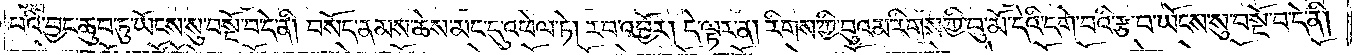པའི་བྱང་ཆུབ་ཏུ་ཡོངས་སུ་བསྔོ་བ་དེ་ནི། བསོད་ནམས་ཆེས་མང་དུ་འཕེལ་ཏེ། རབ་འབྱོར། དེ་ལྟར་ན། རིགས་ཀྱི་བུའམ་རིགས་ཀྱི་བུ་མོ་དེའི་དགེ་བའི་རྩ་བ་ཡོངས་སུ་བསྔོ་བ་དེ་ནི།
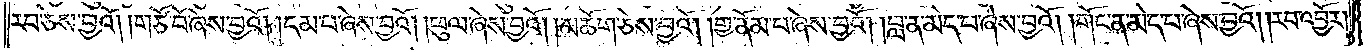རབ་ཅེས་བྱའོ། །གཙོ་བོ་ཞེས་བྱའོ། །དམ་པ་ཞེས་བྱའོ། །ཕུལ་ཞེས་བྱའོ། །མཆོག་ཅེས་བྱའོ། །གྱ་ནོམ་པ་ཞེས་བྱའོ། །བླ་ན་མེད་པ་ཞེས་བྱའོ། །གོང་ན་མེད་པ་ཞེས་བྱའོ། །རབ་འབྱོར།
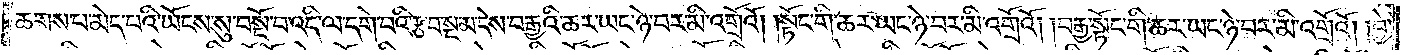ཆགས་པ་མེད་པའི་ཡོངས་སུ་བསྔོ་བ་འདི་ལ་དགེ་བའི་རྩ་བ་སྔ་མ་དེས་བརྒྱའི་ཆར་ཡང་ཉེ་བར་མི་འགྲོའོ། །སྟོང་གི་ཆར་ཡང་ཉེ་བར་མི་འགྲོའོ། །བརྒྱ་སྟོང་གི་ཆར་ཡང་ཉེ་བར་མི་འགྲོའོ། །བྱེ་
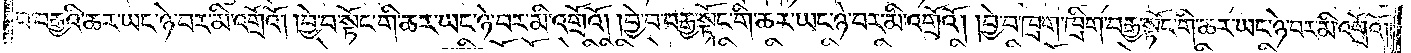བ་བརྒྱའི་ཆར་ཡང་ཉེ་བར་མི་འགྲོའོ། །བྱེ་བ་སྟོང་གི་ཆར་ཡང་ཉེ་བར་མི་འགྲོའོ། །བྱེ་བ་བརྒྱ་སྟོང་གི་ཆར་ཡང་ཉེ་བར་མི་འགྲོའོ། །བྱེ་བ་ཁྲག་ཁྲིག་བརྒྱ་སྟོང་གི་ཆར་ཡང་ཉེ་བར་མི་འགྲོའོ། །
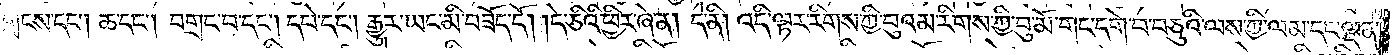གྲངས་དང༌། ཆ་དང༌། བགྲང་བ་དང༌། དཔེ་དང༌། རྒྱུར་ཡང་མི་བཟོད་དོ། །དེ་ཅིའི་ཕྱིར་ཞེ་ན། དེ་ནི། འདི་ལྟར་རིགས་ཀྱི་བུའམ་རིགས་ཀྱི་བུ་མོ་གང་དགེ་བ་བཅུའི་ལས་ཀྱི་ལམ་དང་ལྡན་
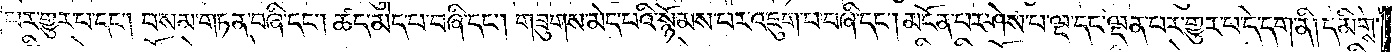པར་གྱུར་པ་དང༌། བསམ་གཏན་བཞི་དང༌། ཚད་མེད་པ་བཞི་དང༌། གཟུགས་མེད་པའི་སྙོམས་པར་འཇུག་པ་བཞི་དང༌། མངོན་པར་ཤེས་པ་ལྔ་དང་ལྡན་པར་གྱུར་པ་དེ་དག་ནི། དམིགས་
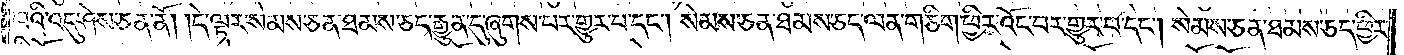པའི་འདུ་ཤས་ཅན་ནོ། །དེ་ལྟར་སེམས་ཅན་ཐམས་ཅད་རྒྱུན་དུ་ཞུགས་པར་གྱུར་པ་དང༌། སེམས་ཅན་ཐམས་ཅད་ལན་གཅིག་ཕྱིར་འོང་བར་གྱུར་པ་དང༌། སེམས་ཅན་ཐམས་ཅད་ཕྱིར་
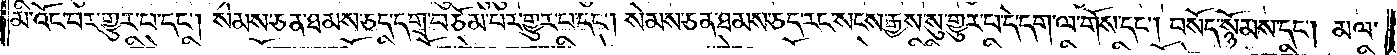མི་འོང་བར་གྱུར་པ་དང༌། སེམས་ཅན་ཐམས་ཅད་དགྲ་བཅོམ་པར་གྱུར་པ་དང༌། སེམས་ཅན་ཐམས་ཅད་རང་སངས་རྒྱས་སུ་གྱུར་པ་དེ་དག་ལ་གོས་དང༌། བསོད་སྙོམས་དང༌། མལ་
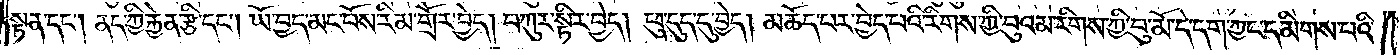སྟན་དང༌། ནད་ཀྱི་རྐྱེན་རྩི་དང༌། ཡོ་བྱད་མང་པོས་རིམ་གྲོར་བྱེད། བཀུར་སྟིར་བྱེད། ཕུ་དུད་དུ་བྱེད། མཆོད་པར་བྱེད་པའི་རིགས་ཀྱི་བུའམ་རིགས་ཀྱི་བུ་མོ་དེ་དག་ཀྱང་དམིགས་པའི་
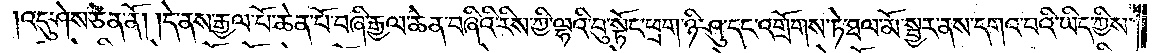འདུ་ཤེས་ཅན་ནོ། །དེ་ནས་རྒྱལ་པོ་ཆེན་པོ་བཞི་རྒྱལ་ཆེན་བཞིའི་རིས་ཀྱི་ལྷའི་བུ་སྟོང་ཕྲག་ཉི་ཤུ་དང་འགྲོགས་ཏེ་ཐལ་མོ་སྦྱར་ནས་དགའ་བའི་ཡིད་ཀྱིས་
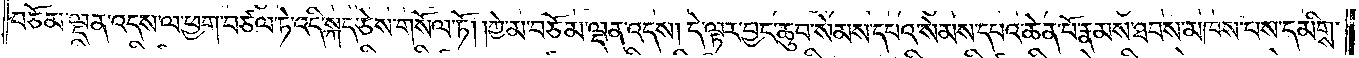བཅོམ་ལྡན་འདས་ལ་ཕྱག་བཙལ་ཏེ་འདི་སྐད་ཅེས་གསོལ་ཏོ། །ཀྱེ་མ་བཅོམ་ལྡན་འདས། དེ་ལྟར་བྱང་ཆུབ་སེམས་དཔའ་སེམས་དཔའ་ཆེན་པོ་རྣམས་ཐབས་མཁས་པས་དམིགས་
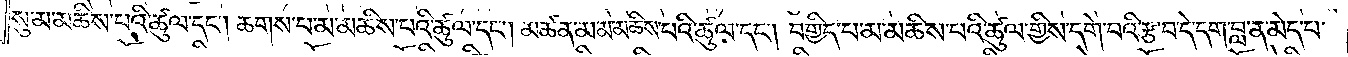སུ་མ་མཆིས་པའི་ཚུལ་དང༌། ཆགས་པ་མ་མཆིས་པའི་ཚུལ་དང༌། མཚན་མ་མ་མཆིས་པའི་ཚུལ་དང༌། བགྱིད་པ་མ་མཆིས་པའི་ཚུལ་གྱིས་དགེ་བའི་རྩ་བ་དེ་དག་བླ་ན་མེད་པ་
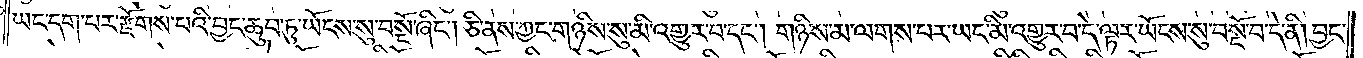ཡང་དག་པར་རྫོགས་པའི་བྱང་ཆུབ་ཏུ་ཡོངས་སུ་བསྔོ་ཞིང༌། ཅི་ནས་ཀྱང་གཉིས་སུ་མི་འགྱུར་བ་དང༌། གཉིས་མ་ལགས་པར་ཡང་མི་འགྱུར་བ་དེ་ལྟར་ཡོངས་སུ་བསྔོ་བ་དེ་ནི། བྱང་
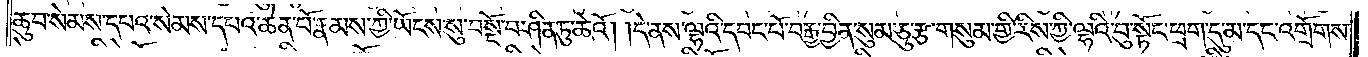ཆུབ་སེམས་དཔའ་སེམས་དཔའ་ཆེན་པོ་རྣམས་ཀྱི་ཡོངས་སུ་བསྔོ་བ་ཤིན་ཏུ་ཆེའོ། །དེ་ནས་ལྷའི་དབང་པོ་བརྒྱ་བྱིན་སུམ་ཅུ་རྩ་གསུམ་གྱི་རིས་ཀྱི་ལྟའི་བུ་སྟོང་ཕྲག་དུ་མ་དང་འགྲོགས་
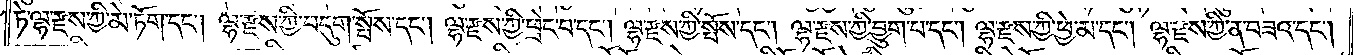ཏེ་ལྷ་རྫས་ཀྱི་མེ་ཏོག་དང༌། ལྷ་རྫས་ཀྱི་བདུག་སྤོས་དང༌། ལྷ་རྫས་ཀྱི་ཕྲེང་བ་དང༌། ལྷ་རྫས་ཀྱི་སྤོས་དང༌། ལྷ་རྫས་ཀྱི་བྱུག་པ་དང༌། ལྷ་རྫས་ཀྱི་ཕྱེ་མ་དང༌། ལྷ་རྫས་ཀྱི་ན་བཟའ་དང༌།
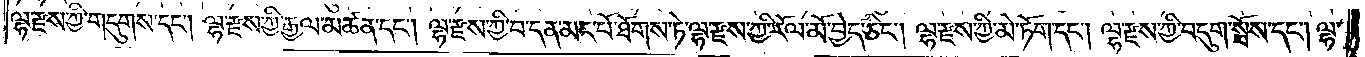ལྷ་རྫས་ཀྱི་གདུགས་དང༌། ལྷ་རྫས་ཀྱི་རྒྱལ་མཚན་དང༌། ལྷ་རྫས་ཀྱི་བ་དན་མང་པོ་ཐོགས་ཏེ་ལྷ་རྫས་ཀྱི་རོལ་མོ་བྱེད་ཅིང༌། ལྷ་རྫས་ཀྱི་མེ་ཏོག་དང༌། ལྷ་རྫས་ཀྱི་བདུག་སྤོས་དང༌། ལྷ་
